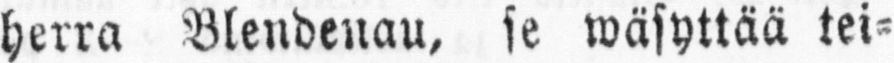herra Blendenau, se wäsyttää tei-
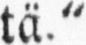tä."
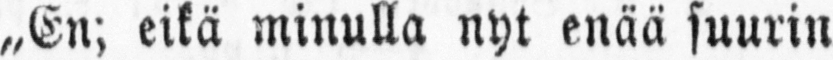„En; eikä minulla nyt enää suurin
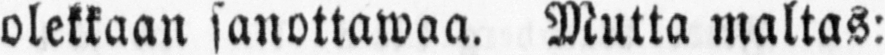olekkaan sanottawaa. Mutta maltas:
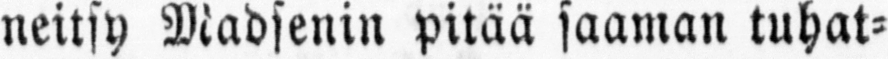neitsy Madsenin pitää saaman tuhat-
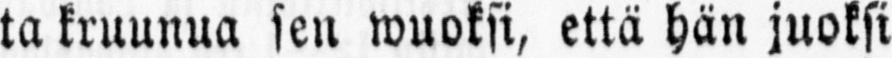ta kruunua sen wuoksi, että hän juoksi
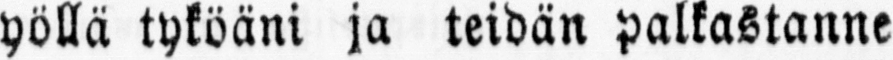yöllä tyköäni ja teidän palkastanne
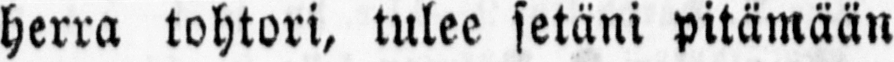herra tohtori, tulee setäni pitämään
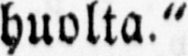huolta."
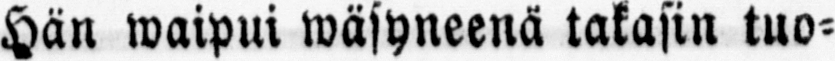Hän waipui wäsyneenä takasin tuo-
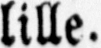lille.
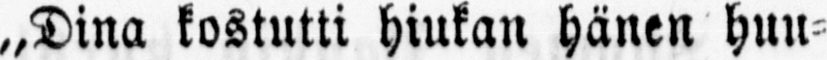„Dina kostutti hiukan hänen huu-
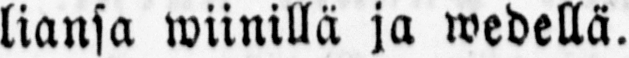liansa wiinillä ja wedellä.
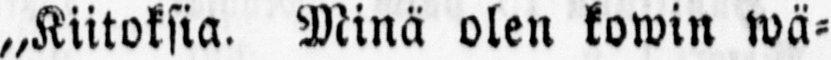„Kiitoksia. Minä olen kowin wä-
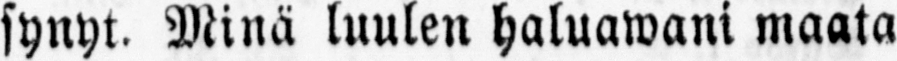synyt. Minä luulen haluawani maata
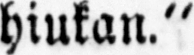hiukan."
